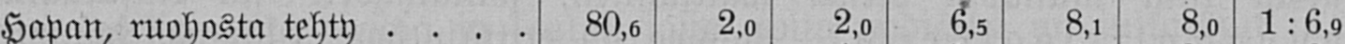Hapan, ruohosta tehty 80,6 2.0 2,0 6,5 8,1 8,0 1:6,9
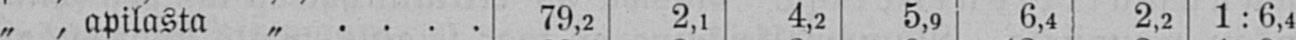„ , apilasta „ 79,2 2,1 4,2 5,9 6,4 2,2 1:6,4
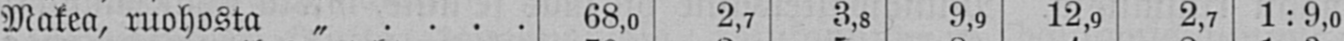Makea, ruohosta „ 68,0 2,7 3,8 9,9 12,9 2,7 1:9,0
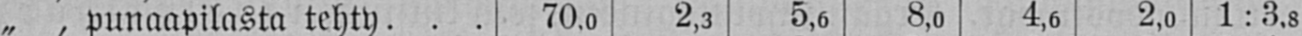„ , punaapilasta tehty 70,0 2,3 5,6 8,0 4,6 2,0 1:3.8
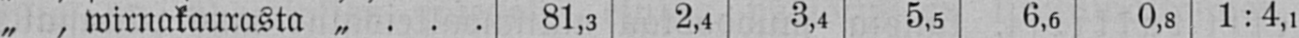„ , wirnakaurasta „ 81,3 2,4 3,4 5,5 6,6 0,8 1:4,1
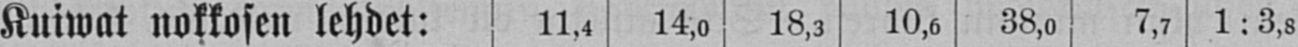Kuiwat nokkosen lehdet: 11,4 14,0 18,3 10,6 38,0 7,7 1:3,8
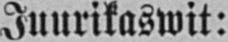Juurikaswit:
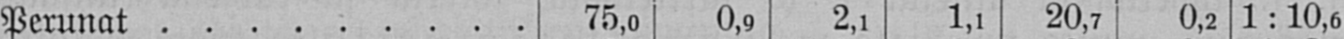Perunat 75,0 0,9 2,1 1,1 20,7 0,2 1:10,6
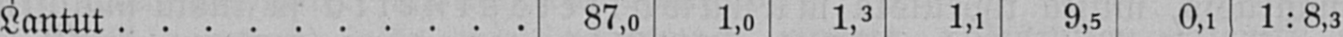Lantut 87,0 1,0 1,3 1,1 9,5 0,1 1:8,3
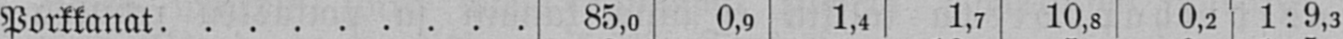Porkkanat 85,0 0,9 1,4 1,7 10,8 0,2 1:9,3
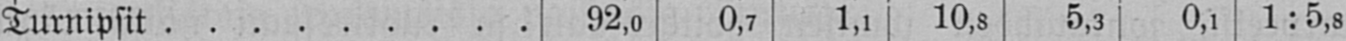Turnipsit 92,0 0,7 1,1 10,8 5,3 O,1 1:5,8
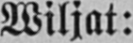Wiljat:
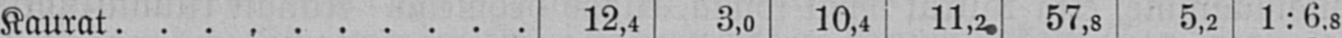Kaurat 12,4 3,0 10,4 11,2. 57,8 5,2 1:6.8
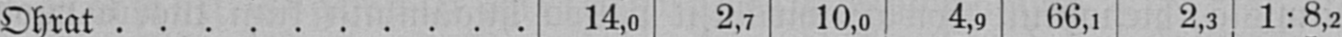Ohrat 14,0 2,7 10,0 4,9 66,1 2,3 1:8,2
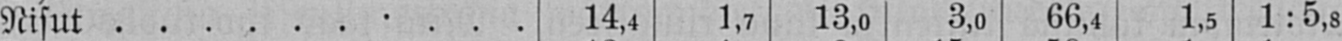Nisut 14,4 1,7 13,0 3,0 66,4 1,5 1:5,8
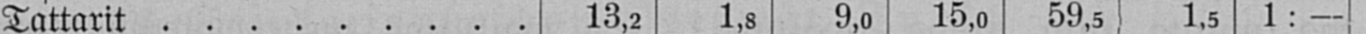Tattarit 13,2 1,8 9,0 15,0 59,5 1,5 1: —
